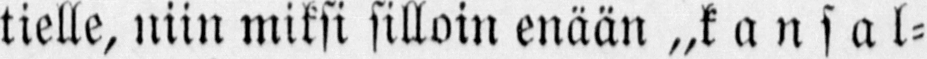tielle, niin miksi silloin enään „kansal-
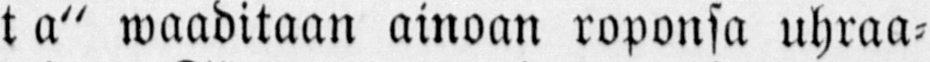ta" waaditaan ainoan roponsa uhraa-
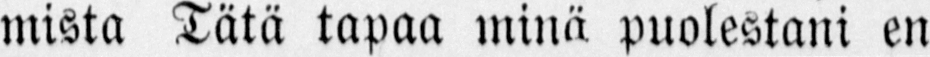mista Tätä tapaa minä puolestani en
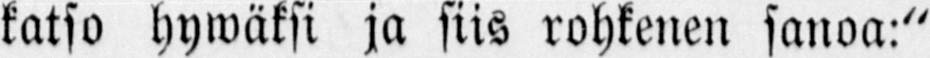katso hywäksi ja siis rohkenen sanoa:"
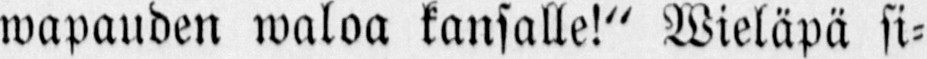wapauden waloa kansalle!" Wieläpä si-
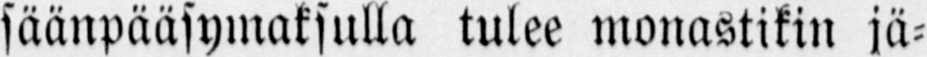säänpääsymaksulla tulee monastikin jä-
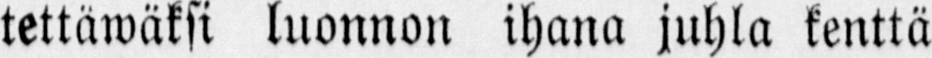tettawäksi luonnon ihana juhla kenttä
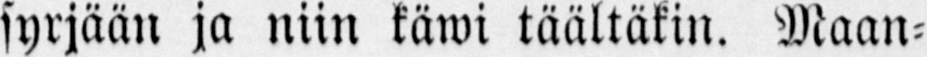syrjään ja niin käwi täältäkin. Maan-
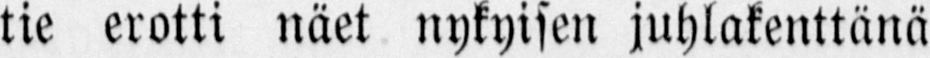tie erotti näet nykyisen juhlakenttänä
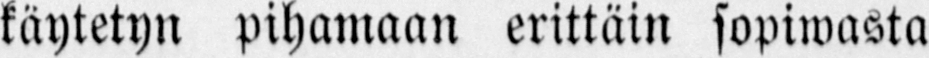käytetyn pihamaan erittäin sopiwasta
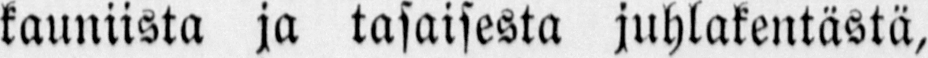kauniista ja tasaisesta juhlakentästä,
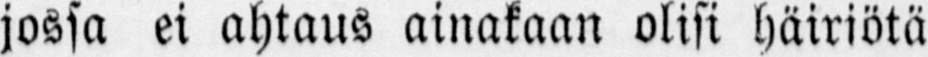jossa ei ahtaus ainakaan olisi häiriötä
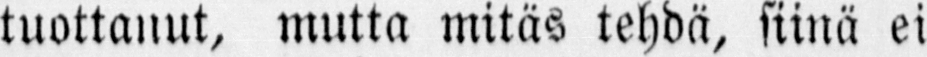tuottanut, mutta mitäs tehdä, siinä ei
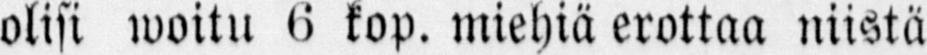olisi woittu 6 kop. miehiä erottaa niistä
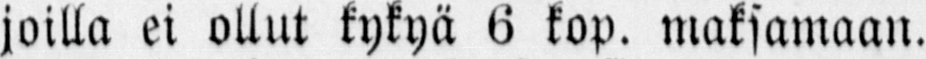joilla ei ollut kykyä 6 kop. maksamaan.
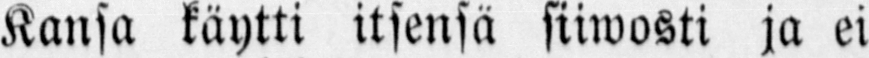Kansa käytti itsensä siiwosti ja ei
